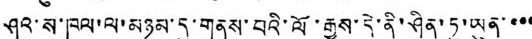ཤའ་ས་ཁུལ་ལ་མཉམ་དུ་གནས་པའི་ལོ་རྒྱུས་དེ་ནི་ཤིན་ཏུ་ཡུན་་་་
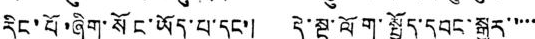རིང་པོ་ཞིག་སོང་ཡོད་པ་དང་། དེ་སྔ་ལོག་སྤྱོད་དབང་སྒྱུར་་་་་
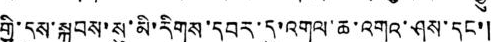གྱི་དུས་སྐབས་སུ་མི་རིགས་དབར་དུ་འགལ་ཆ་འགའ་ཤས་དང་།
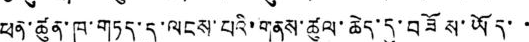ཕན་ཚུན་ཁ་གཏད་དུ་ལངས་པའི་གནས་ཚུལ་ཆེད་དུ་བཟོས་ཡོད་་
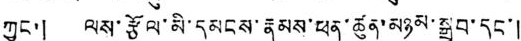ཀྱང་། ལས་རྩོལ་མི་དམངས་རྣམས་ཕན་ཚུན་མཉམ་སྒྲུབ་དང་།
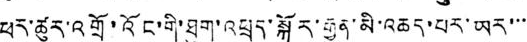ཕར་ཚུར་འགྲོ་འོང་གི་ཐུག་འཕྲད་སྐོར་རྒྱུན་མི་འཆད་པར་ཡར་་་་
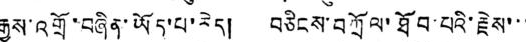རྒྱས་འགྲོ་བཞིན་ཡོད་པ་རེད། བཅིངས་བཀྲོལ་ཐོབ་པའི་རྗེས་་་
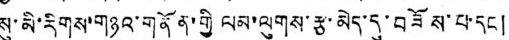སུ་མི་རིགས་གཉའ་གནོན་གྱི ལམ་ལུགས་རྩ་མེད་དུ་བཟོས་པ་དང །
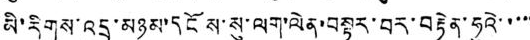མི་རིགས་འདྲ་མཉམ་དངོས་སུ་ལག་ལེན་བསྟར་བར་བརྟེན་ཧུའེ་་་་་
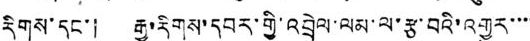རིགས་དང་། རྒྱ་རིགས་དབར་གྱི་འབྲེལ་ལམ་ལ་རྩ་བའི་འགྱུར་་་་
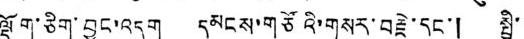ལྡོག་ཅིག་བྱུང་འདུག དམངས་གཙོའི་གསར་བརྗེ་དང་། སྤྱི་་
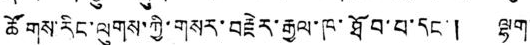ཚོགས་རིང་ལུགས་གྱི་གསར་བརྗེར་རྒྱལ་ཁ་ཐོབ་པ་དང་། ལྷག་
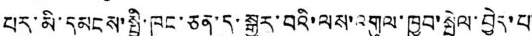པར་མི་དམངས་སྤྱི་ཁང་ཅན་དུ་སྒྱུར་བའི་ལས་འགུལ་ཁྱབ་སྤེལ་བྱེད་པ་
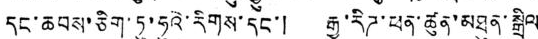དང་ཆབས་ཅིག་ཏུ་ཧུའེ་རིགས་དང་། རྒྱ་རིཊ་ཕན་ཚུན་མཐུན་སྒྲིལ
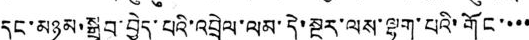དང་མཉམ་སྒྲུབ་བྱེད་པའི་འབྲེལ་ལམ་དེ་སྔར་ལས་ལྷག་པའི་གོང་་་་
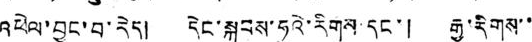འཕེལ་བྱུང་བ་རེད། དེང་སྐབས་ཧུའེ་རིགས་དང་། རྒྱ་རིགས་་
